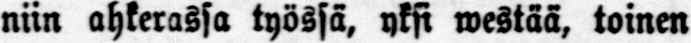niin ahkerassa työssä, yksi westää, toinen
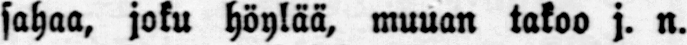sahaa, joku höylää, muuan takoo j. n.
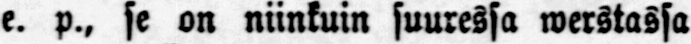e. p., se on niinkuin suuressa werstassa
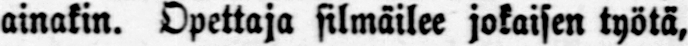ainakin. Opettaja silmäilee jokaisen työtä,
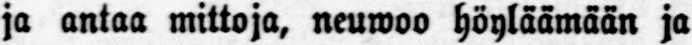ja antaa mittoja, neuwoo höyläämään ja
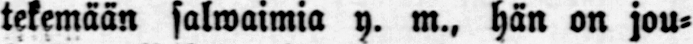tekemään salwaimia y. m., hän on jou-
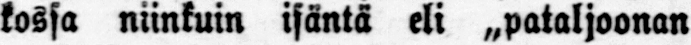kossa niinkuin isäntä eli „pataljoonan
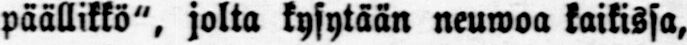päällikkö", jolta kysytään neuwoa kaikissa,
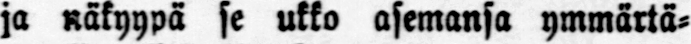ja näkyypä se ukko asemansa ymmärtä-
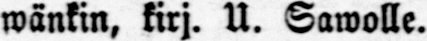wänkin, kirj. U. Sawolle.
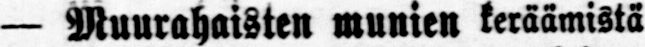— Muurahaisten munien keräämistä
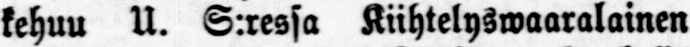kehuu U. S:ressa Kiihtelyswaaralainen
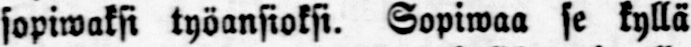sopiwaksi työansioksi. Sopiwaa se kyllä
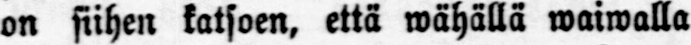on siihen katsoen, että wähällä waiwalla
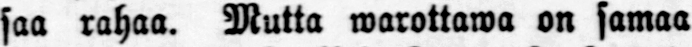saa rahaa. Mutta warottawa on samaa
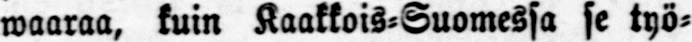waaraa, kuin Kaakkois-Suomessa se työ-
